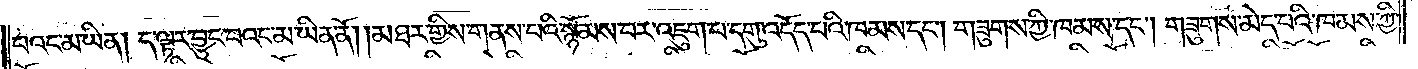པའང་མ་ཡིན། ད་ལྟར་བྱུང་བའང་མ་ཡིན་ནོ། །མཐར་གྱིས་གནས་པའི་སྙོམས་པར་འཇུག་པ་དགུ་འདོད་པའི་ཁམས་དང༌། གཟུགས་ཀྱི་ཁམས་དང༌། གཟུགས་མེད་པའི་ཁམས་ཀྱི་
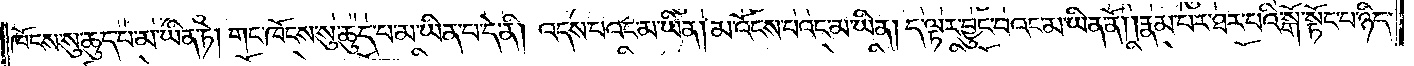ཁོངས་སུ་ཆུད་པ་མ་ཡིན་ཏེ། གང་ཁོངས་སུ་ཆུད་པ་མ་ཡིན་པ་དེ་ནི། འདས་པའང་མ་ཡིན། མ་འོངས་པའང་མ་ཡིན། ད་ལྟར་བྱུང་བའང་མ་ཡིན་ནོ། །རྣམ་པར་ཐར་པའི་སྒོ་སྟོང་པ་ཉིད་
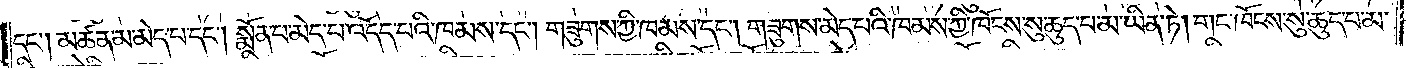དང༌། མཚན་མ་མེད་པ་དང༌། སྨོན་པ་མེད་པ་འདོད་པའི་ཁམས་དང༌། གཟུགས་ཀྱི་ཁམས་དང༌། གཟུགས་མེད་པའི་ཁམས་ཀྱི་ཁོངས་སུ་ཆུད་པ་མ་ཡིན་ཏེ། གང་ཁོངས་སུ་ཆུད་པ་མ་
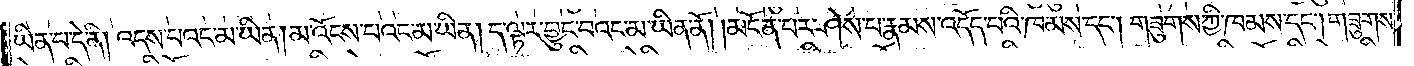ཡིན་པ་དེ་ནི། འདས་པའང་མ་ཡིན། མ་འོངས་པའང་མ་ཡིན། ད་ལྟར་བྱུང་བའང་མ་ཡིན་ནོ། །མངོན་པར་ཤེས་པ་རྣམས་འདོད་པའི་ཁམས་དང༌། གཟུགས་ཀྱི་ཁམས་དང༌། གཟུགས་
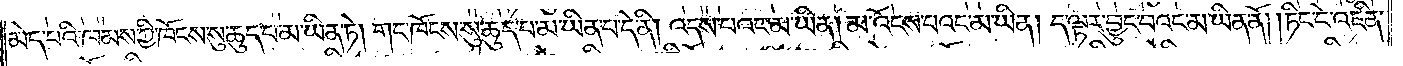མེད་པའི་ཁམས་ཀྱི་ཁོངས་སུ་ཆུད་པ་མ་ཡིན་ཏེ། གང་ཁོངས་སུ་ཆུད་པ་མ་ཡིན་པ་དེ་ནི། འདས་པའང་མ་ཡིན། མ་འོངས་པའང་མ་ཡིན། ད་ལྟར་བྱུང་བའང་མ་ཡིན་ནོ། །ཏིང་ངེ་འཛིན་
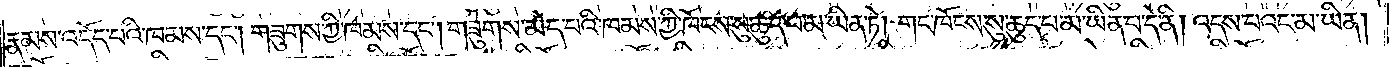རྣམས་འདོད་པའི་ཁམས་དང༌། གཟུགས་ཀྱི་ཁམས་དང༌། གཟུགས་མེད་པའི་ཁམས་ཀྱི་ཁོངས་སུ་ཆུད་པ་མ་ཡིན་ཏེ། གང་ཁོངས་སུ་ཆུད་པ་མ་ཡིན་པ་དེ་ནི། འདས་པའང་མ་ཡིན།
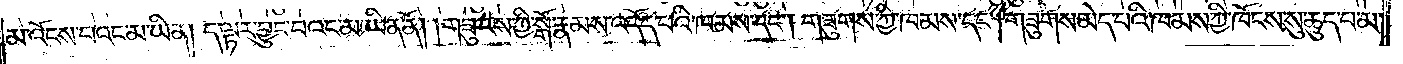མ་འོངས་པའང་མ་ཡིན། ད་ལྟར་བྱུང་བའང་མ་ཡིན་ནོ། །གཟུངས་ཀྱི་སྒོ་རྣམས་འདོད་པའི་ཁམས་དང༌། གཟུགས་ཀྱི་ཁམས་དང༌། གཟུགས་མེད་པའི་ཁམས་ཀྱི་ཁོངས་སུ་ཆུད་པ་མ་
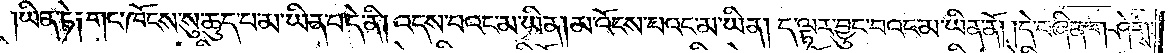ཡིན་ཏེ༑ གང་ཁོངས་སུ་ཆུད་པ་མ་ཡིན་པ་དེ་ནི། འདས་པའང་མ་ཡིན། མ་འོངས་པའང་མ་ཡིན། ད་ལྟར་བྱུང་བའང་མ་ཡིན་ནོ། །དེ་བཞིན་གཤེགས་
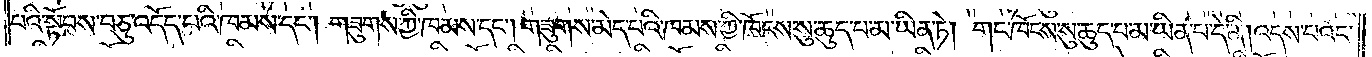པའི་སྟོབས་བཅུ་འདོད་པའི་ཁམས་དང༌། གཟུགས་ཀྱི་ཁམས་དང༌། གཟུགས་མེད་པའི་ཁམས་ཀྱི་ཁོངས་སུ་ཆུད་པ་མ་ཡིན་ཏེ། གང་ཁོངས་སུ་ཆུད་པ་མ་ཡིན་པ་དེ་ནི། འདས་པའང་
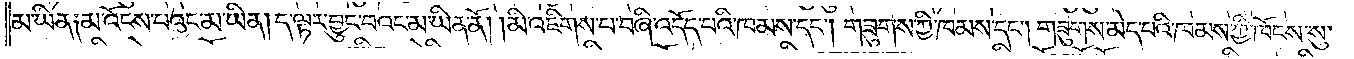མ་ཡིན༑ མ་འོངས་པའང་མ་ཡིན། ད་ལྟར་བྱུང་བའང་མ་ཡིན་ནོ། །མི་འཇིགས་པ་བཞི་འདོད་པའི་ཁམས་དང༌། གཟུགས་ཀྱི་ཁམས་དང༌། གཟུགས་མེད་པའི་ཁམས་ཀྱི་ཁོངས་སུ་
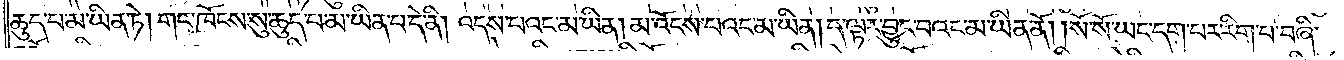ཆུད་པ་མ་ཡིན་ཏེ། གང་ཁོངས་སུ་ཆུད་པ་མ་ཡིན་པ་དེ་ནི། འདས་པའང་མ་ཡིན། མ་འོངས་པའང་མ་ཡིན། ད་ལྟར་བྱུང་བའང་མ་ཡིན་ནོ། །སོ་སོ་ཡང་དག་པར་རིག་པ་བཞི་
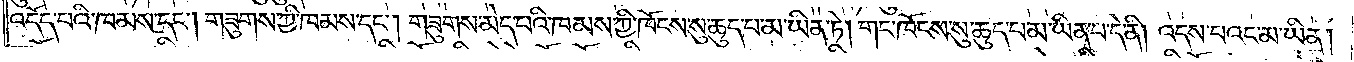འདོད་པའི་ཁམས་དང༌། གཟུགས་ཀྱི་ཁམས་དང༌། གཟུགས་མེད་པའི་ཁམས་ཀྱི་ཁོངས་སུ་ཆུད་པ་མ་ཡིན་ཏེ། གང་ཁོངས་སུ་ཆུད་པ་མ་ཡིན་པ་དེ་ནི། འདས་པའང་མ་ཡིན།
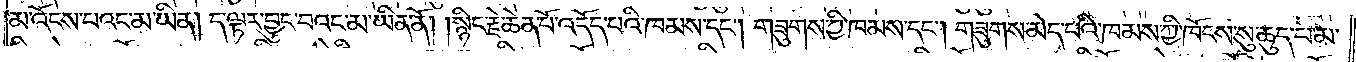མ་འོངས་པའང་མ་ཡིན། ད་ལྟར་བྱུང་བའང་མ་ཡིན་ནོ། །སྙིང་རྗེ་ཆེན་པོ་འདོད་པའི་ཁམས་དང༌། གཟུགས་ཀྱི་ཁམས་དང༌། གཟུགས་མེད་པའི་ཁམས་ཀྱི་ཁོངས་སུ་ཆུད་པ་མ་
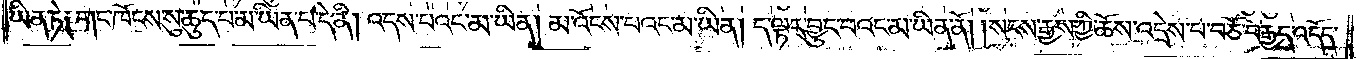ཡིན་ཏེ༑ གང་ཁོངས་སུ་ཆུད་པ་མ་ཡིན་པ་དེ་ནི། འདས་པའང་མ་ཡིན། མ་འོངས་པའང་མ་ཡིན། ད་ལྟར་བྱུང་བའང་མ་ཡིན་ནོ། །སངས་རྒྱས་ཀྱི་ཆོས་མ་འདྲེས་པ་བཅོ་བརྒྱད་འདོད་
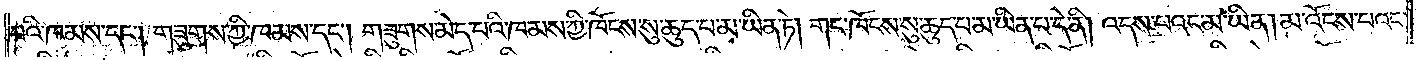པའི་ཁམས་དང༌། གཟུགས་ཀྱི་ཁམས་དང༌། གཟུགས་མེད་པའི་ཁམས་ཀྱི་ཁོངས་སུ་ཆུད་པ་མ་ཡིན་ཏེ། གང་ཁོངས་སུ་ཆུད་པ་མ་ཡིན་པ་དེ་ནི། འདས་པའང་མ་ཡིན། མ་འོངས་པའང་
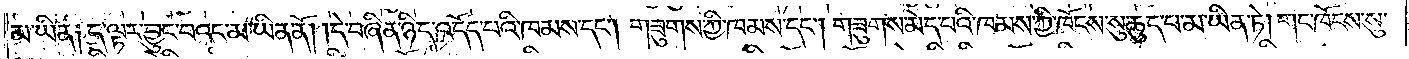མ་ཡིན༑ ད་ལྟར་བྱུང་བའང་མ་ཡིན་ནོ། །དེ་བཞིན་ཉིད་འདོད་བའི་ཁམས་དང༌། གཟུགས་ཀྱི་ཁམས་དང༌། གཟུགས་མེད་པའི་ཁམས་ཀྱི་ཁོངས་སུ་ཆུད་པ་མ་ཡིན་ཏེ། གང་ཁོངས་སུ་
